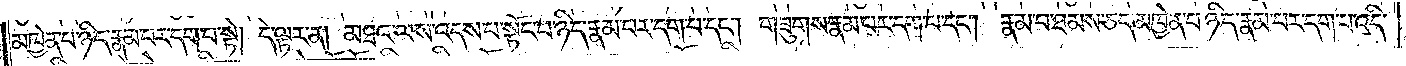མཁྱེན་པ་ཉིད་རྣམ་པར་དག་པ་སྟེ། དེ་ལྟར་ན། མཐའ་ལས་འདས་པ་སྟོང་པ་ཉིད་རྣམ་པར་དག་པ་དང༌། གཟུགས་རྣམ་པར་དག་པ་དང༌། རྣམ་པ་ཐམས་ཅད་མཁྱེན་པ་ཉིད་རྣམ་པར་དག་པ་འདི་
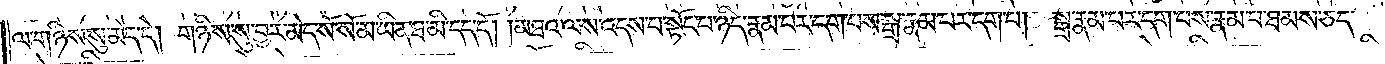ལ་གཉིས་སུ་མེད་དེ། གཉིས་སུ་བྱར་མེད་སོ་སོ་མ་ཡིན་ཐ་མི་དད་དོ། །མཐའ་ལས་འདས་པ་སྟོང་པ་ཉིད་རྣམ་པར་དག་པས་སྒྲ་རྣམ་པར་དག་པ། སྒྲ་རྣམ་པར་དག་པས་རྣམ་པ་ཐམས་ཅད་
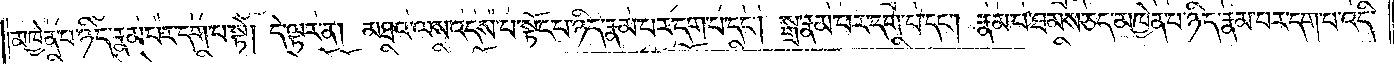མཁྱེན་པ་ཉིད་རྣམ་པར་དག་པ་སྟེ། དེ་ལྟར་ན། མཐའ་ལས་འདས་པ་སྟོང་པ་ཉིད་རྣམ་པར་དག་པ་དང༌། སྒྲ་རྣམ་པར་དག་པ་དང༌། རྣམ་པ་ཐམས་ཅད་མཁྱེན་པ་ཉིད་རྣམ་པར་དག་པ་འདི་
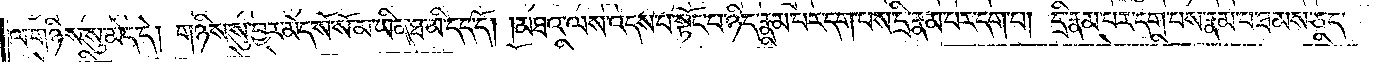ལ་གཉིས་སུ་མེད་དེ། གཉིས་སུ་བྱར་མེད་སོ་སོ་མ་ཡིན་ཐ་མི་དད་དོ། །མཐའ་ལས་འདས་པ་སྟོང་པ་ཉིད་རྣམ་པར་དག་པས་དྲི་རྣམ་པར་དག་པ། དྲི་རྣམ་པར་དག་པས་རྣམ་པ་ཐམས་ཅད་
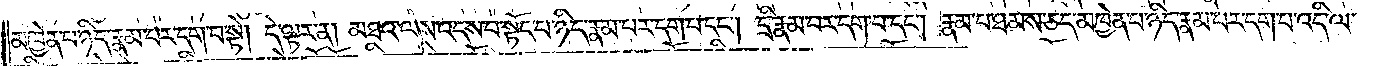མཁྱེན་པ་ཉིད་རྣམ་པར་དག་པ་སྟེ། དེ་ལྟར་ན། མཐའ་ལས་འདས་པ་སྟོང་པ་ཉིད་རྣམ་པར་དག་པ་དང༌། དྲི་རྣམ་པར་དག་པ་དང༌། རྣམ་པ་ཐམས་ཅད་མཁྱེན་པ་ཉིད་རྣམ་པར་དག་པ་འདི་ལ་
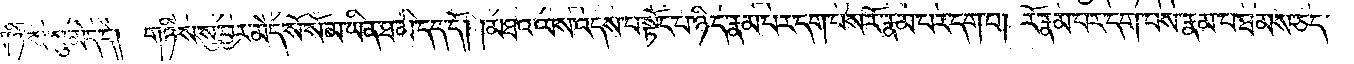གཉིས་སུ་མེད་དེ། གཉིས་སུ་བྱར་མེད་སོ་སོ་མ་ཡིན་ཐ་མི་དད་དོ། །མཐའ་ལས་འདས་པ་སྟོང་པ་ཉིད་རྣམ་པར་དག་པས་རོ་རྣམ་པར་དག་པ། རོ་རྣམ་པར་དག་པས་རྣམ་པ་ཐམས་ཅད་
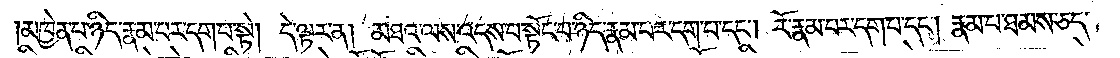མཁྱེན་པ་ཉིད་རྣམ་པར་དག་པ་སྟེ། དེ་ལྟར་ན། མཐའ་ལས་འདས་པ་སྟོང་པ་ཉིད་རྣམ་པར་དག་པ་དང༌། རོ་རྣམ་པར་དག་པ་དང༌། རྣམ་པ་ཐམས་ཅད་
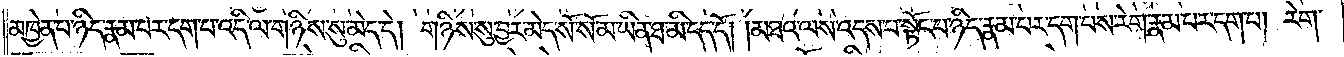མཁྱེན་པ་ཉིད་རྣམ་པར་དག་པ་འདི་ལ་གཉིས་སུ་མེད་དེ། གཉིས་སུ་བྱར་མེད་སོ་སོ་མ་ཡིན་ཐ་མི་དད་དོ། །མཐའ་ལས་འདས་པ་སྟོང་པ་ཉིད་རྣམ་པར་དག་པས་རེག་རྣམ་པར་དག་པ། རེག་
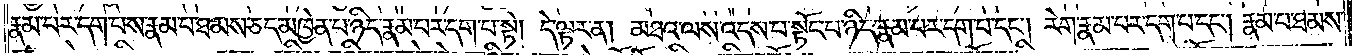རྣམ་པར་དག་པས་རྣམ་པ་ཐམས་ཅད་མཁྱེན་པ་ཉིད་རྣམ་པར་དག་པ་སྟེ། དེ་ལྟར་ན། མཐའ་ལས་འདས་པ་སྟོང་པ་ཉིད་རྣམ་པར་དག་པ་དང༌། རེག་རྣམ་པར་དག་པ་དང༌། རྣམ་པ་ཐམས་
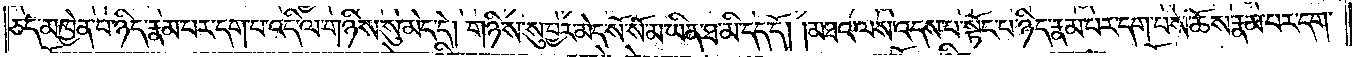ཅད་མཁྱེན་པ་ཉིད་རྣམ་པར་དག་པ་འདི་ལ་གཉིས་སུ་མེད་དེ། གཉིས་སུ་བྱར་མེད་སོ་སོ་མ་ཡིན་ཐ་མི་དད་དོ། །མཐའ་ལས་འདས་པ་སྟོང་པ་ཉིད་རྣམ་པར་དག་པས་ཆོས་རྣམ་པར་དག་
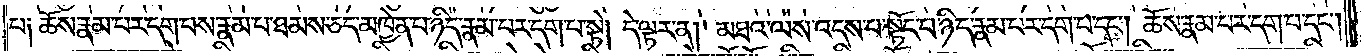པ༑ ཆོས་རྣམ་པར་དག་པས་རྣམ་པ་ཐམས་ཅད་མཁྱེན་པ་ཉིད་རྣམ་པར་དག་པ་སྟེ། དེ་ལྟར་ན། མཐའ་ལས་འདས་པ་སྟོང་པ་ཉིད་རྣམ་པར་དག་པ་དང༌། ཆོས་རྣམ་པར་དག་པ་དང༌།
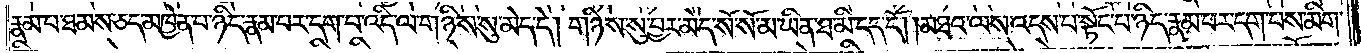རྣམ་པ་ཐམས་ཅད་མཁྱེན་པ་ཉིད་རྣམ་པར་དག་པ་འདི་ལ་གཉིས་སུ་མེད་དེ། གཉིས་སུ་བྱར་མེད་སོ་སོ་མ་ཡིན་ཐ་མི་དད་དོ། །མཐའ་ལས་འདས་པ་སྟོང་པ་ཉིད་རྣམ་པར་དག་པས་མིག་
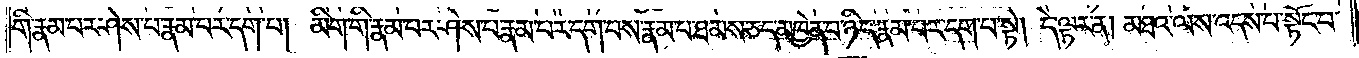གི་རྣམ་པར་ཤེས་པ་རྣམ་པར་དག་པ། མིག་གི་རྣམ་པར་ཤེས་པ་རྣམ་པར་དག་པས་རྣམ་པ་ཐམས་ཅད་མཁྱེན་པ་ཉིད་རྣམ་པར་དག་པ་སྟེ། དེ་ལྟར་ན། མཐའ་ལས་འདས་པ་སྟོང་པ་
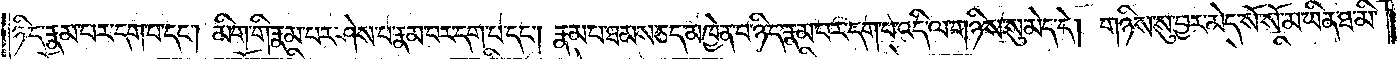ཉིད་རྣམ་པར་དག་པ་དང༌། མིག་གི་རྣམ་པར་ཤེས་པ་རྣམ་པར་དག་པ་དང༌། རྣམ་པ་ཐམས་ཅད་མཁྱེན་པ་ཉིད་རྣམ་པར་དག་པ་འདི་ལ་གཉིས་སུ་མེད་དེ། གཉིས་སུ་བྱར་མེད་སོ་སོ་མ་ཡིན་ཐ་མི་
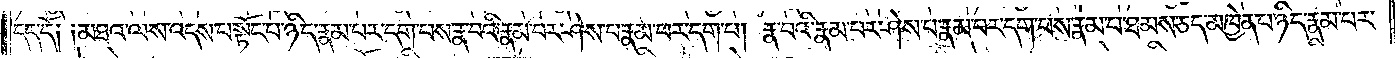དད་དོ༑ ༑མཐའ་ལས་འདས་པ་སྟོང་པ་ཉིད་རྣམ་པར་དག་པས་རྣ་བའི་རྣམ་པར་ཤེས་པ་རྣམ་པར་དག་པ། རྣ་བའི་རྣམ་པར་ཤེས་པ་རྣམ་པར་དག་པས་རྣམ་པ་ཐམས་ཅད་མཁྱེན་པ་ཉིད་རྣམ་པར་
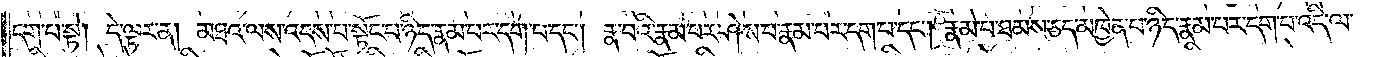དག་པ་སྟེ། དེ་ལྟར་ན། མཐའ་ལས་འདས་པ་སྟོང་པ་ཉིད་རྣམ་པར་དག་པ་དང༌། རྣ་བའི་རྣམ་པར་ཤེས་པ་རྣམ་པར་དག་པ་དང༌། རྣམ་པ་ཐམས་ཅད་མཁྱེན་པ་ཉིད་རྣམ་པར་དག་པ་འདི་ལ་
